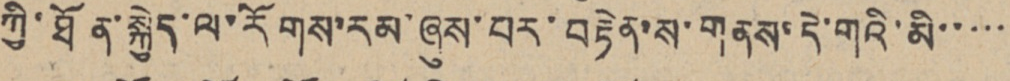ཀྱི་ཐོན་སྐྱེད་ལ་རོགས་རམ་ཞུས་པར་བརྟེན་ས་གནས་དེ་གའི་མི་་་་་
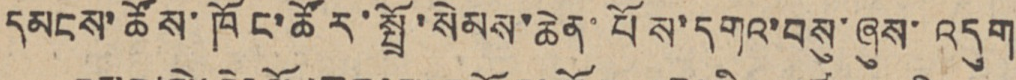དམངས་ཚོས་ཁོང་ཚོར་སྤྲོ་སེམས་ཆེན་པོས་དགའ་བསུ་ཞུས་འདུག
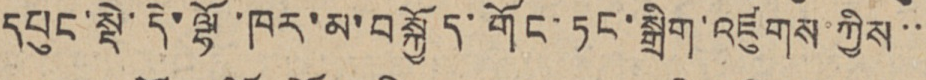དཔུང་སྡེ་དེ་ལྷོ་ཁར་མ་བསྐྱོད་གོང་ཏང་སྒྲིག་འཛུགས་ཀྱིས་་་
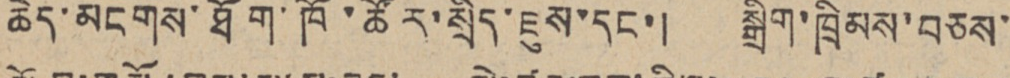ཆེད་མངགས་ཐོག་ཁོ་ཚོར་སྲིད་ཇུས་དང་། སྒྲིག་ཁྲིམས་བཅས་
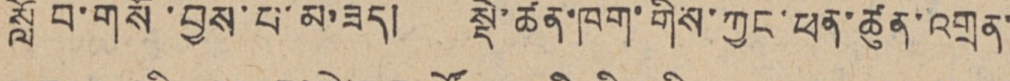སློབ་གསོ་བྱས་པ་མ་ཟད། སྡེ་ཚན་ཁག་གིས་ཀྱང་ཕན་ཚུན་འགྲན་
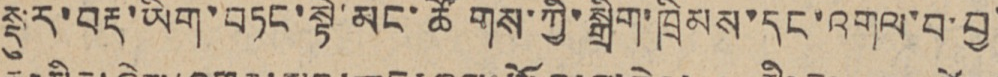སྡུར་བརྡ་ཡིག་བཏང་སྟེ་མང་ཚོགས་ཀྱི་སྒྲིག་ཁྲིམས་དང་འགལ་བ་བྱ་
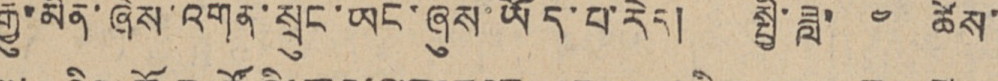རྒྱུ་མིན་ཞེས་འགན་སྲུང་ཡང་ཞུས་ཡོད་པ་རེད། སྤྱི་ཟླ་ ༤ ཚེས་
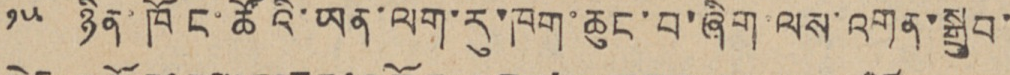༡༥ ཉིན་ཁོང་ཚོའི་ཡན་ལག་རུ་ཁག་ཆུང་བ་ཞིག་ལས་འགན་སྒྲུབ་
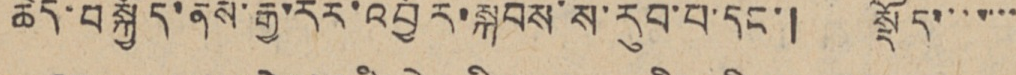ཆེད་བསྐྱོད་ནས་རྒྱ་རར་འབྱོར་སྐབས་ས་རུབ་པ་དང་། སྡོད་་་་་་་
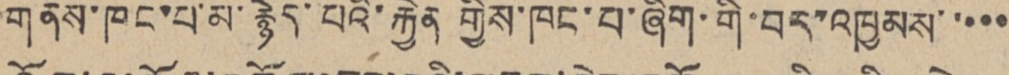གནས་ཁང་པ་མ་རྙེད་པའི་རྐྱེན གྱིས་ཁང་པ་ཞིག་གི་བར་འཁྱམས་་་་་
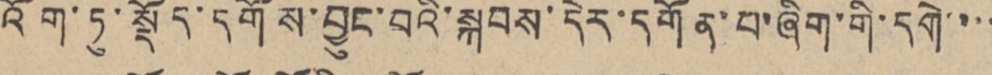འོག་ཏུ་སྡོད་དགོས་བྱུང་བའི་སྐབས་དེར་དགོན་པ་ཞིག་གི་དགེ་་་་
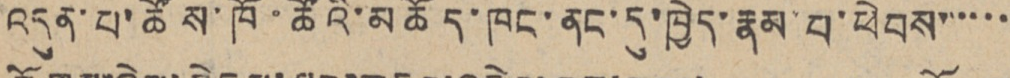འདུན་པ་ཚོས་ཁོ་ཚོའི་མཆོད་ཁང་ནང་དུ་ཁྱེད་རྣམ་པ་ཕེབས་་་་་་
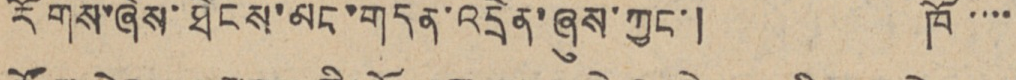རོགས་ཞེས་ཐེངས་མང་གདན་འདྲེན་ཞུས་ཀྱང་། ཁོ་་་་
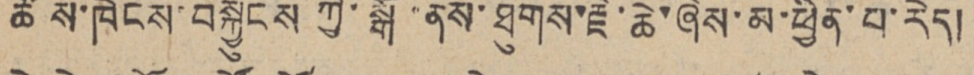ཚོས་ཁེངས་བསྐྱུངས ཀྱི་སྒོ་ནས་ཐུགས་རྗེ་ཆེ་ཞེས་མ་ཕྱིན་པ་རེད།
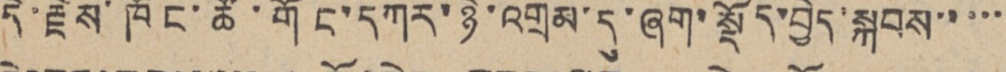དེ་རྗེས་ཁོང་ཚོ་གོང་དཀར་ཉེ་འགྲམ་དུ་ཞག་སྡོད་བྱེད་སྐབས་་་་་
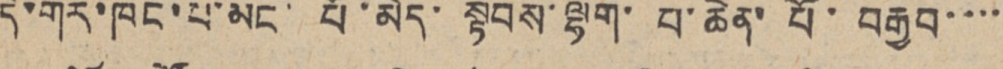དེ་གར་ཁང་པ་མང་པོ་མེད་སྟབས་ལྷག་པ་ཆེན་པོ་བརྒྱབ་་་་
